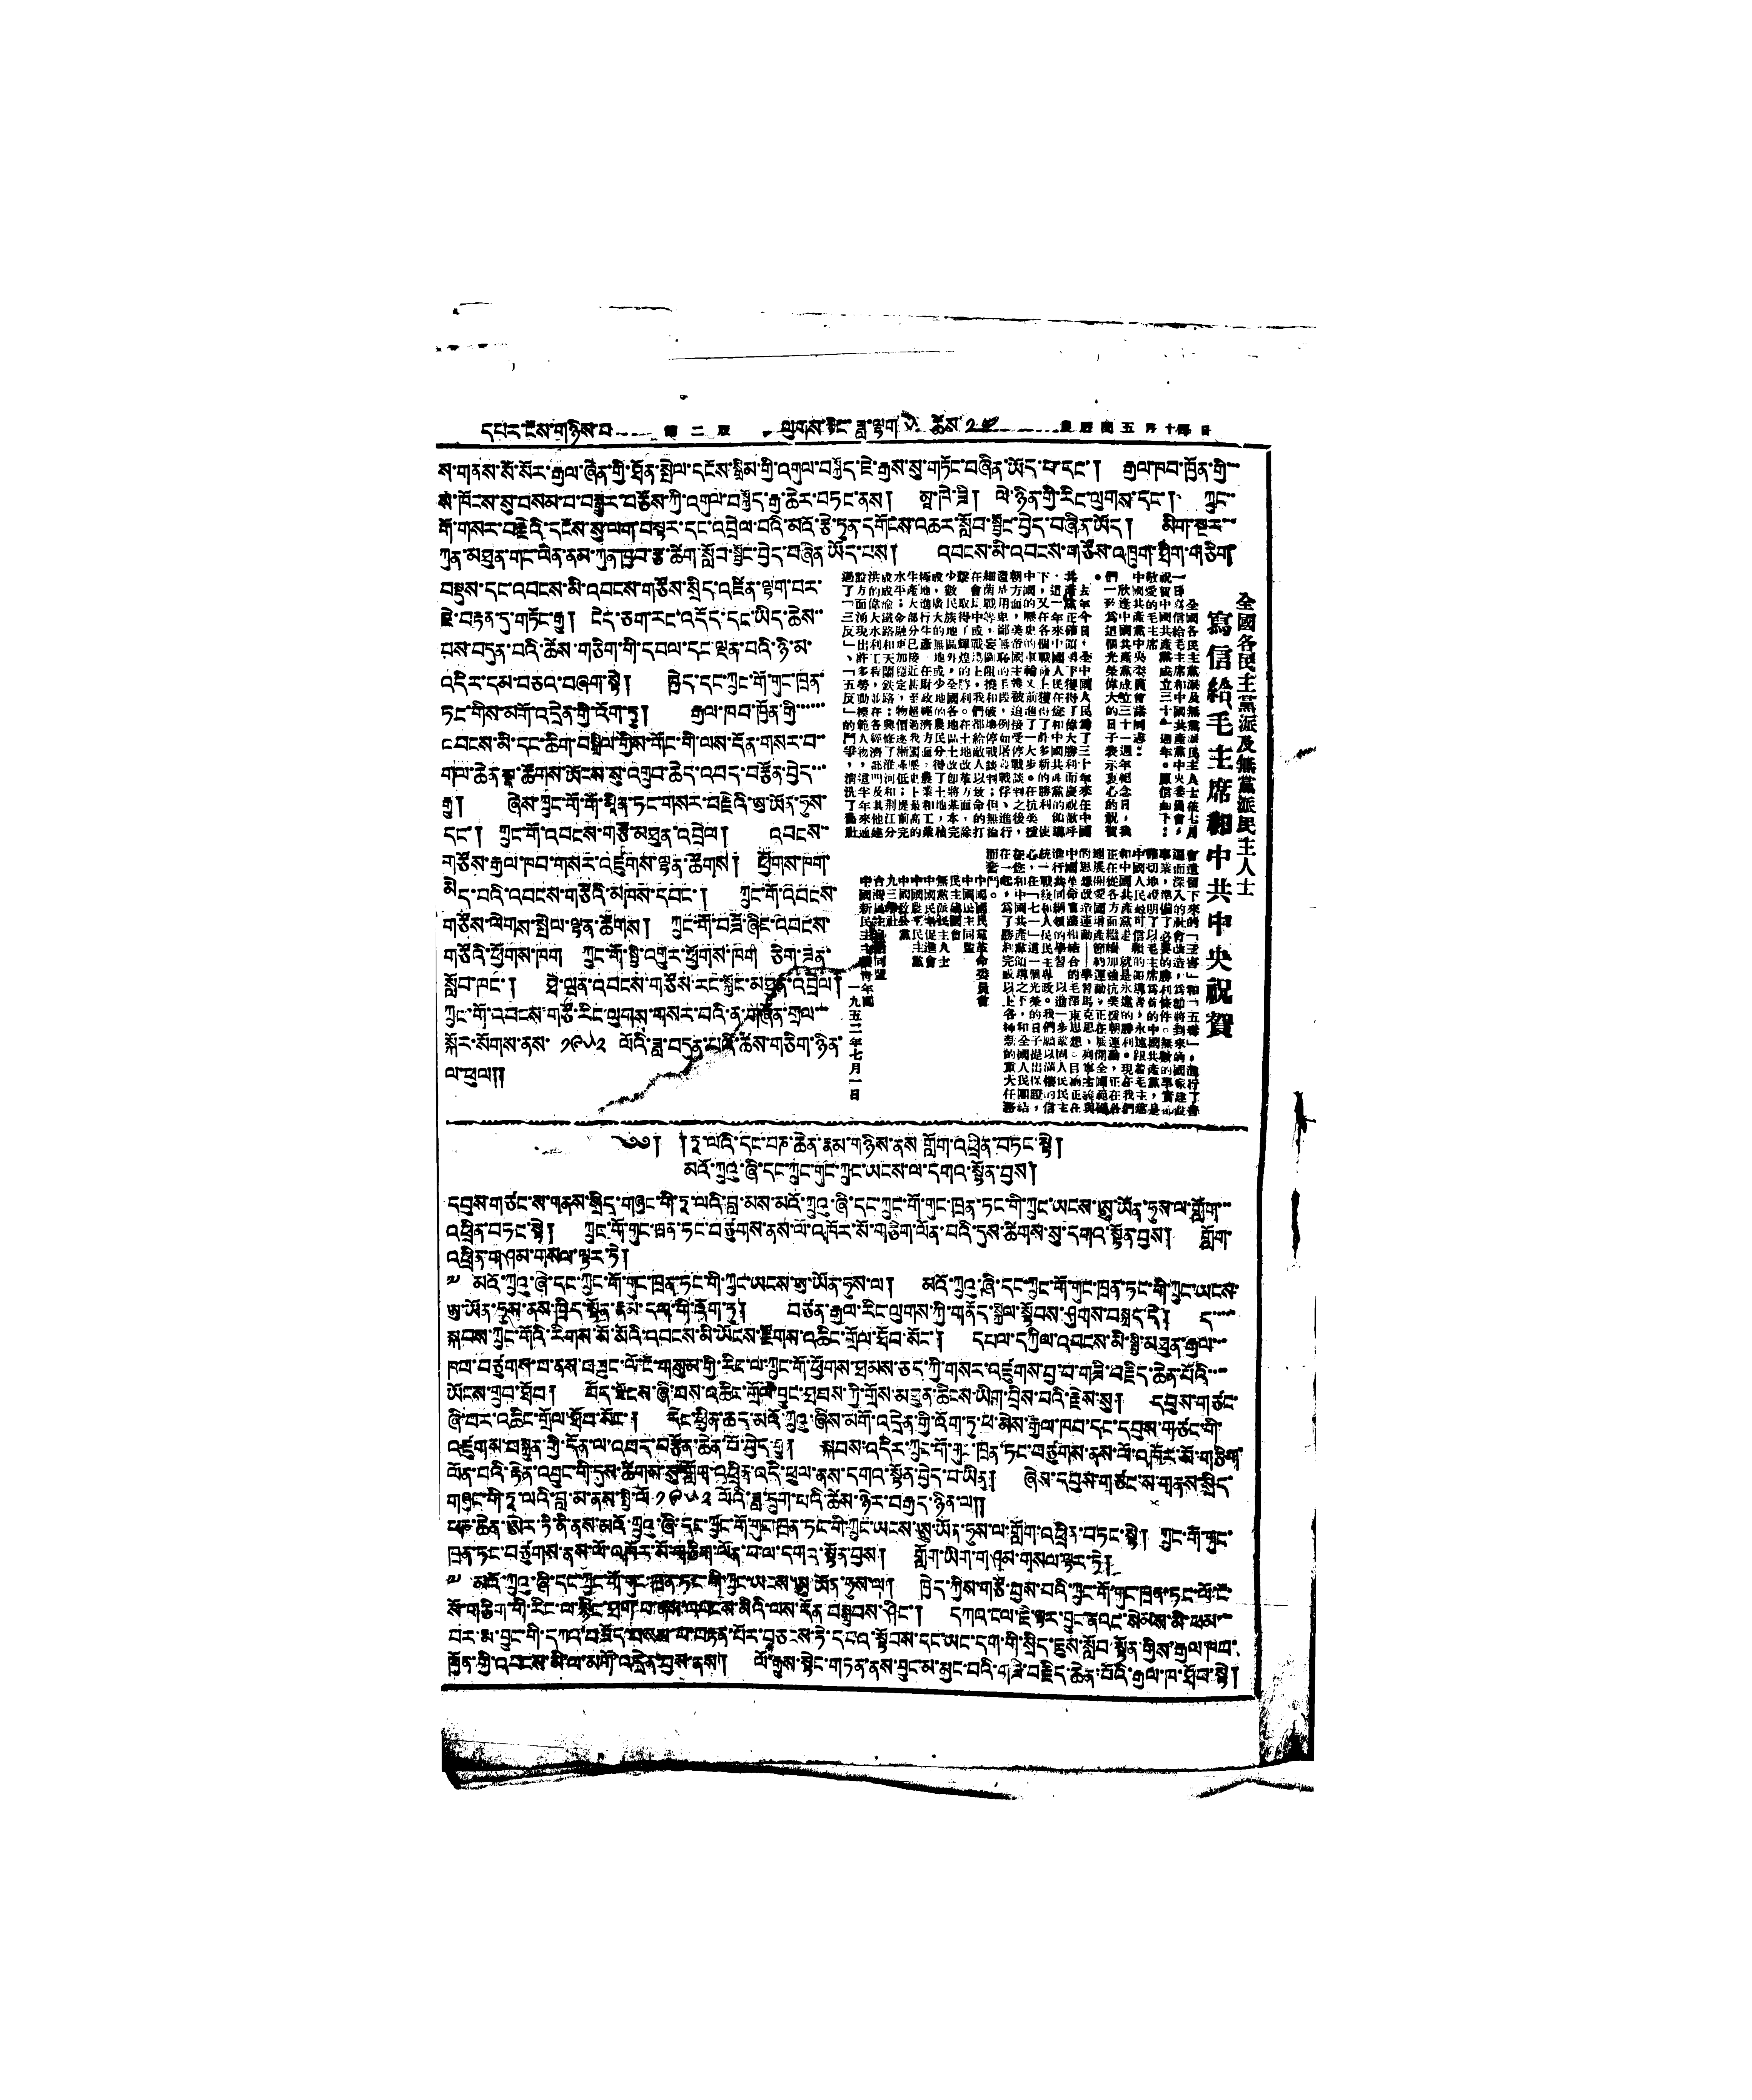དཔར་ངོས་གཉིས་པ 第二版 ལུགས་རྙིང་ཟླ་ལྷག ༥ ཚེས་ ༡༤ 農 曆 閏 五 月 十四 日
ས་གནས་སོ་སོར་རྒྱལ་ཞེན་གྱི་ཐོན་སྤེལ་དངོས་སྒྲིམ་གྱི་འགུལ་བསྐྱོད་ཇེ་རྒྱས་སུ་གཏོང་བཞིན་ཡོད་པ་དང་། རྒྱལ་ཁབ་ཁྱོན་གྱི་་་
སི་ཁོངས་ས་བསམ་པ་བརྒྱུར་བཅོས་ཀྱི་འགུལ་བསྐྱོད་རྒྱ་ཆེར་བཏང་ནས། མཱ་ཁེ་ཟི། ལེ་ཉིན་གྱི་རིང་ལུགས་དང་། ཀྲུང་་
གོ་གསར་བརྗེའི་དངོས་སུ་ལག་བསྟར་དང་འབྲེལ་བའི་མའོ་རྩེ་ཏུན་དགོངས་འཆར་སློབ་སྦྱང་བྱེད་བཞིན་ཡོད། མིག་སྔར་་་
ཀུན་མཐུན་གང་ལིན་ནམ་ཀུན་ཁྱབ་རྩ་ཚིག་སློབ་སྦྱོང་བྱེད་བཞིན ཡོད་པས། འབངས་མི་འབངས་གཙོས་འཁྲུག་ཐིག་གཅིག་
བསྡུས་དང་འབངས་མི་འབངས་གཙོས་སྲིད་འཛིན་ལྷག་པར་
ཇེ་བརྟན་དུ་གཏོང་རྒྱུ། ངེད་ཅག་རང་འདོད་དང་ཡིད་ཆེས་་
པས་བདུན་པའི་ཚེས་གཅིག་གི་དཔལ་དང་ལྡན་པའི་ཉི་མ་
འདིར་དམ་བཅའ་བཞག་སྟེ། ཁྱེད་དང་ཀྲུང་གོ་གུང་ཁྲན་
ཏང་གིས་མགོ་འདྲེན་གྱི་འོག་ཏུ། རྒྱལ་ཁབ་ཁྱོན་གྱི་་་་་་
འབངས་མི་དང་ཆིག་བསྒྲིལ་གྱིས་གོང་གི་ལས་དོན་གསར་བ་་
གལ་ཆེན སྣ་ཚོགས་ཡོངས་སུ་འགྲུབ་ཆེད་འབད་བརྩོན་བྱེད་་་
རྒྱུ། ཞེས་ཀྲུང་གོ་གོ་མཱིན་ཏང་གསར་བརྗེའི་ཨུ་ཡོན་ཧུས་
དང་། གྲུང་གོ་འབངས་གཙོ་མཐུན་འབྲེལ། འབངས་་
གཙོས་རྒྱལ་ཁབ་གསར་འཛུགས་ལྷན་ཚོགས། ཕྱོགས་ཁག་
མེད་པའི་འབངས་གཙོའི་མཁས་དབང་། ཀྲུང་གོ་འབངས་
གཙོས་ལེགས་སྤེལ་ལྷན་ཚོགས། ཀྲུང་གོ་བཟོ་ཞིང་འབངས་
གཙོའི་ཕྱོགས་ཁག ཀྲུང་གོ་སྤྱི་འགྱུར་ཕོགས་ཁག ཅིག་ཟན་
སློབ་ཁང་། ཐེ་ཝན་འབངས་གཙོས་རང་སྐྱོང་མཐུན་འབྲེལ།
ཀྲུང་གོ་འབངས་གཙོ་རིང་ལུགས་གསར་བའི་ན་གཞོན་གྲལ་་་
སྐོར་སོགས་ནས་ ༡༩༥༢ ལོའི་ཟླ་བདུན་པའི་ཚེས་གཅིག་ཉིན་
ལ་ཕུལ།།
全國各民主黨派及無黨派民主人士
寫信給毛主席和中共中央祝賀
全國各民主黨派及無黨派民主人士在七月
一日寫信給毛主席和中國共產黨中央委員會，
祝賀中國共產黨成立三十一週年。原信如下：
敬愛的毛主席
中國共產黨中央委員會諸同志：
欣逢中國共產黨成立三十一週年紀念日，我
們一致爲這個光榮偉大的日子表示衷心的祝賀
。
去年今日，全中國人民爲了三十年來在中國
共產黨正確領導下獲得了偉大勝利而慶祝歡呼
，這一年來中國人民在您和中國共產黨的領導
下，又在各個戰綫上獲得了許多新的勝利，使
中國的歷史的車輪又前進了一大步。在抗美援
朝方面，美帝國主義被迫接受停戰談判之後，
還是用卑鄙無恥的手段，例如屠殺戰俘、進行
細菌戰等，妄圖阻撓和破壞停戰談判；但無論
在會場中或戰場上，我們都給敵人以致命的打
擊，取得了輝煌的勝利。在土地改革方面，除
少數民族地區外，全國各地區土改卽將基本完
成，廣大的無地或少地的農民分得了土地，積
極地進行生產。在財政經濟方面，農業和工業
生產大部分已接近甚至超過我國歷史上最高的
水平；金融更加穩定，物價逐漸降低；提前完
成成渝鐵路和天蘭鐵路；興修了淮河和荊江分
洪的偉大水利工程，並在各經濟部們及其他建
設方面湧現出許多勞動模範人物，這半年來通
過了「三反」、「五反」的鬥爭，清洗了舊社
會遺留下來的「三害」和「五毒」，進行了普
遍而深入的社會改造，爲卽將到來的國家建設
事業，準備了必要的勝利條件。無數的事實都
確切地證明了以毛主席爲首的中國共產黨，是
中國人民最可信賴的領導者，永遠跟着毛主席
和中國共產黨走，就是永遠的勝利。現在我們
正在從各方面繼續加強抗美援朝運動，正在各
地展開愛國增產節約運動，正在展開全國範圍
的思想改造運動——學習馬克思、列寧主義與
中國革命實踐相結合的毛澤東思想。目前正在
進行共同綱領的學習，以進一步鞏固人民民主
統一戰綫和人民民主專政。我們願以滿懷的信
心，在「七一」這一個光榮的日子提出保證，
在您和中國共產黨領導之下，和全國人民團結
在一起，爲了勝利完成以上各種新的重大任務
而奮鬥。
中國國民黨革命委員會
中國民主同盟
民主建國會
無黨派民主人士
中國民主促進會
中國農工民主黨
中國致公黨
九三學社
台灣民主自治同盟
中國新民主主義靑年團
一九五二年七月一日
༄༅། །ཏཱ་ལའི་དང་པཎ་ཆེན་རྣམ་གཉིས་ནས གློག་འཕྲིན་བཏང་སྟེ།
མའོ་ཀྲུའུ་ཞི་དང་ཀྲུང་གུང་ཀྲུང་ཡངས་ལ་དགའ་སྟོན་བྱས།
དབུས་གཙང་ས་གནས་སྲིད་གཞུང་གི་ཏཱ་ལའི་བླ་མས་མའོ་ཀྲུའུ་ཞི་དང་ཀྲུང་གོ་གུང་ཁྲན་ཏང་གི་ཀྲུང་ཡངས་ཨུ་ཡོན་ཧུས་ལ་གློག་་་
འཕྲིན་བཏང་སྟེ། ཀྲུང་གོ་གུང་ཁྲན་ཏང་བཙུགས་ནས་ལོ་འཁོར་སོ་གཅིག་ལོན་པའི་དུས་ཚིགས་སུ་དགའ་སྟོན་བྱས། གློག་
འཕྲིན་གཤམ་གསལ་ལྟར་ཏེ།
༸ མའོ་ཀྲུའུ་ཞི་དང་ཀྲུང་གོ་གུང་ཁྲན་ཏང་གི་ཀྲུང་ཡངས་ཨུ་ཡོན་ཧུས་ལ། མའོ་ཀྲུའུ་ཞི་དང་ཀྲུང་གོ་གུང་ཁྲན་ཏང་གི་ཀྲུང་ཡངས་
ཨུ་ཡོན་ཧུས་ནས་ཁྲིད་སྟོན་རྣམ་དག་གི་འོག་ཏུ། བཙན་རྒྱལ་རིང་ལུགས་ཀྱི་གནོད་སྐྱེལ་སྟོབས་ཤུགས་བསྐྲད་དེ། ད་་་་་་
སྐབས་ཀྲུང་གོའི་རིགས་སོ་མོའི་བབངས་མི་ཡོངས་རྫོགས་འཆིང་གྲོལ་ཐོབ་སོང་། དཔལ་དཀྱིལ་འབངས་མི་སྤྱི་མཐུན་རྒྱལ་་་
ཁབ་བཙུགས་པ་ནས་བཟུང་ལོ་ངོ་གསུམ་གྱི་རིང་ལ་ཀྲུང་གོ་ཕྱོགས་ཐམས་ཅད་ཀྱི་གསར་འཛུགས་བྱ་བ་གཟི་བརྗིད་ཆེན་པོའི་་་་
ཡོངས་གྲུབ་ཐོབ། བོད་ལྗོངས་ཞི་བས་འཆིང་གྲོལ་བྱུང་ཐབས་ཀྱི་གྲོས་མཐུན་ཆིངས་ཡིག་བྲིས་པའི་རྗེས་སུ། དབུས་གཙང་
ཞི་བར་འཆིང་གྲོལ་ཐོབ་སོང་། དེང་ཕྱིན་ཆད་མའོ་ཀྲུའུ་ཞིས་མགོ་འདྲེན་གྱི་འོག་ཏུ་ཕ་མེས་རྒྱལ་ཁབ་དང་དབུས་གཙང་གི་
འཛུགས་བསྐྲུན་གྱི་དོན་ལ་འབད་བརྩོན་ཆེན་པོ་བྱེད་རྒྱུ། སྐབས་འདིར་ཀྲུང་གོ་གུང་ཁྲན་ཏང་བཙུགས་ནས་ལོ་འཁོར་མོ་གཅིག་
ལོན་པའི་རྟེན་འབྱུང་གི་དུས་ཚིགས་སུ་གློག་འཕྲིན་འདི་ཕུལ་ནས་དགའ་སྟོན་བྱེད་པ་ཡིན། ཞེས་དབུས་གཙང་ས་གནས་སྲིད་
གཞུང་གི་ཏཱ་ལའི་བླ་མ་ནས་སྤྱི་ལོ ༡༩༥༢ ལོའི་ཟླ་དྲུག་པའི་ཚེས་ཉེར་བརྒྱད་ཉིན་ལ།།
ཕཎ་ཆེན་ཨེར་ཏི་ནི་ནས་མའོ་གྲུའུ་ཞི་དང་ཀྲུང་གོ་གུང་ཁྲན་ཏང་གི་ཀྲུང་ཡངས་ཨུ་ཡོན་ཧུས་ལ་གློག་འཕྲིན་བཏང་སྟེ། ཀྲུང་གོ་གུང་
ཁྲན་ཏང་བཙུགས་ནས་ལོ་འཁོར་སོ་གཅིག་ལོན་པ་ལ་དགའ་སྟོན་བྱས། གློག་ཡིག་གཤམ་གསལ་ལྟར་ཏེ།
༸ མའོ་ཀྲུའུ་ཞི་དང་ཀྲུང་གོ་གུང་ཁྲན་ཏང་གི་ཀྲུང་ཡངས་ཨུ་ཡོན་ཧུས་ལ། ཁྱེད་ཀྱིས་གཙོ་བྱས་པའི་ཀྲུང་གོ་གུང་ཁྲན་ཏང་ལོ་ངོ་
སོ་གཅིག་གི་རིང་ལ་སྙིང་ཐག་པ་ནས་འབངས་མིའི་ལས་དོན་བསྒྲུབས་ཤིང་། དཀའ་ངལ་ཇི་ལྟར་བྱུང་ནའང་སེམས་མི་ཕམ་་་
བར་རྨ་བྱུང་གི་དཀའ་བཟོད་བསམ་པ་བརྟན་པོར་བཅངས་ཏེ་དཔའ་སྟོབས་དང་ཡང་དག་གི་སྲིད་ཇུས་སློབ་སྟོན་གྱིས་རྒྱལ་ཁབ་
ཁྱོན་གྱི་འབངས་མི་ལ་མགོ་འདྲེན་བྱས་ནས། ལོ་རྒྱུས་སྟེང་གཏན་ནས་བྱུང་མ་མྱང་བའི་གཟི་བརྗིད་ཆེན་པོའི་རྒྱལ་ཁ་ཐོབ་སྟེ།
